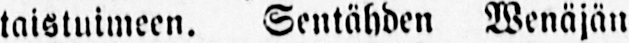taistuimeen. Sentähden Wenäjän
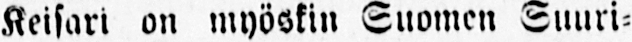Keisari on myöskin Suomen Suuri-
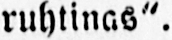ruhtinas".
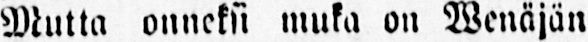Mutta onneksi muka on Wenäjän
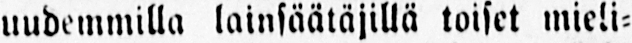uudemmilla lainsäätäjillä toiset mieli-
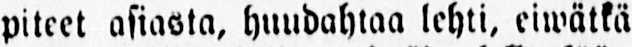piteet asiasta, huudahtaa lehti, eiwätkä
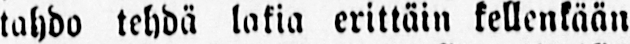tahdo tehdä lakia erittäin kellenkään
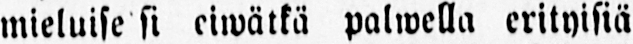mieluise si eiwätkä palwella erityisiä
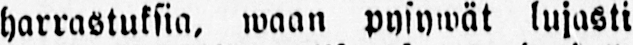harrastuksia, waan pysywät lujasti
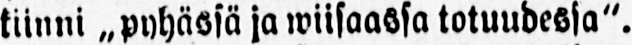kiinni ˶pyhässä ja wiisaassa totuudessa".
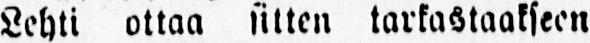Lehti ottaa sitten tarkastaakseen
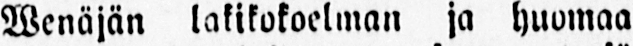Wenäjän lakikokoelman ja huomaa
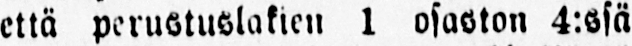että perustuslakien 1 osaston 4:ssä
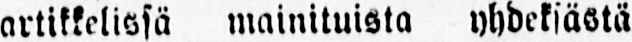artikkelissä mainituista yhdeksästä
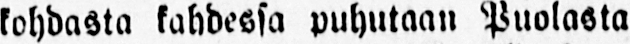kohdasta kahdessa puhutaan Puolasta
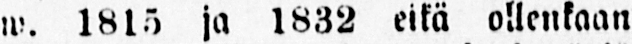w. 1815 ja 1832 eikä ollenkaan
